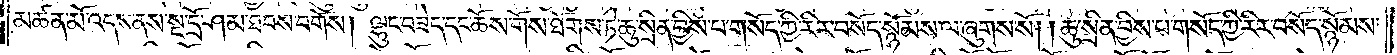མཚན་མོ་འདས་ནས་སྔ་དྲོ་ཤམ་ཐབས་བགོས། ལྷུང་བཟེད་དང་ཆོས་གོས་ཐོགས་ཏེ་ཆུ་སྲིན་བྱིས་པ་གསོད་ཀྱི་རིར་བསོད་སྙོམས་ལ་ཞུགས་སོ། །ཆུ་སྲིན་བྱིས་པ་གསོད་ཀྱི་རིར་བསོད་སྙོམས་
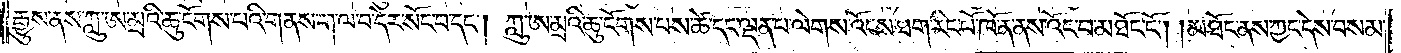རྒྱུས་ནས་ཀླུ་ཨ་མྲའི་ཆུ་ངོགས་པའི་གནས་ག་ལ་བ་དེར་སོང་བ་དང༌། ཀླུ་ཨ་མྲའི་ཆུ་ངོགས་པས་ཚེ་དང་ལྡན་པ་ལེགས་འོངས་ཐག་རིང་པོ་ཁོ་ན་ནས་འོང་བ་མཐོང་ངོ༌། །མཐོང་ནས་ཀྱང་དེས་བསམ་
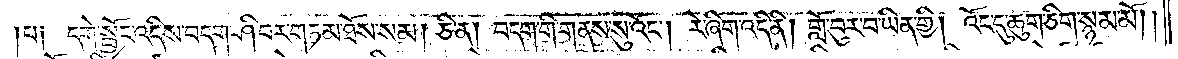པ༑ དགེ་སྦྱོང་འདིས་བདག་ཤི་བར་གཏམ་ཐོས་སམ། ཅི་ན། བདག་གི་གནས་སུ་འོང༌། རེ་ཞིག་འདི་ནི། གློ་བུར་བ་ཡིན་གྱི། འོང་དུ་ཆུག་ཅིག་སྙམ་མོ། །
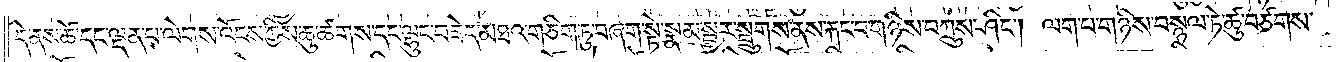དེ་ནས་ཚེ་དང་ལྡན་པ་ལེགས་འོངས་ཀྱིས་ཆུ་ཚགས་དང་ལྷུང་བཟེད་མཐའ་གཅིག་ཏུ་བཞག་སྟེ་སྣམ་སྦྱར་སྦྲུགས་ནས་རྐང་པ་གཉིས་བཀྲུས་ཤིང༌། ལག་པ་གཉིས་བསྙལ་ཏེ་ཚུ་བཙགས་
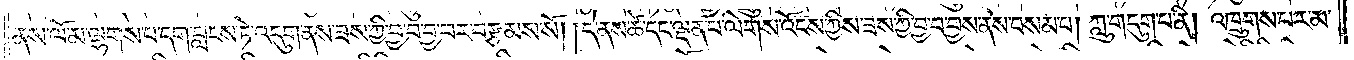ནས་ལོ་མ་ལྷགས་པ་དག་བླངས་ཏེ་འདུག་ནས་ཟས་ཀྱི་བྱ་བ་བྱ་བར་བརྩམས་སོ། །དེ་ནས་ཚེ་དང་ལྡན་པ་ལེགས་འོངས་ཀྱིས་ཟས་ཀྱི་བྱ་བ་བྱས་ནས་བསམ་པ། ཀླུ་གདུག་པ་ནི། འཁྲུགས་པར་མ་
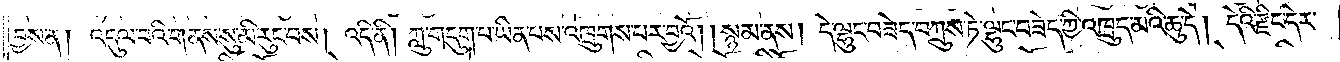བྱས་ན། འདུལ་བའི་གནས་སུ་མི་རུང་བས། འདི་ནི། ཀླུ་གདུག་པ་ཡིན་པས་འཁྲུགས་པར་བྱའོ། །སྙམ་ནས། དེ་ལྷུང་བཟེད་བཀྲུས་ཏེ་ལྷུང་བཟེད་ཀྱི་འཁྲུད་མའི་ཆུ་དེ། དེའི་རྫིང་དེར་
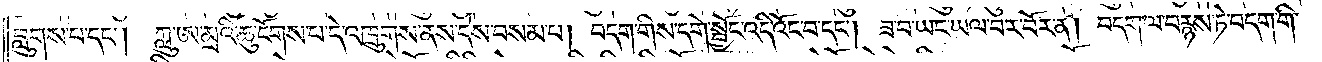བླུགས་པ་དང༌། ཀླུ་ཨ་མྲའི་ཆུ་ངོགས་པ་དེ་འཁྲུགས་ནས་དེས་བསམ་པ། བདག་གིས་དགེ་སྦྱོང་འདི་འོང་བ་དང༌། ཟ་བ་ཡང་ཡལ་བར་བོར་ན། བདག་ལ་བརྙས་ཏེ་བདག་གི་
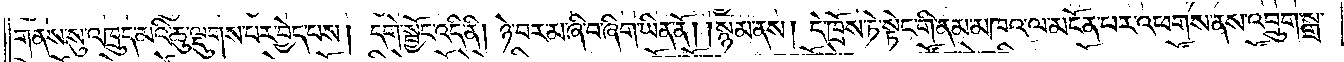གནས་སུ་འཁྲུད་མའི་ཆུ་ལྡུགས་པར་བྱེད་པས། དགེ་སྦྱོང་འདི་ནི། ཉེ་བར་མ་ཞི་བ་ཞིག་ཡིན་ནོ། །སྙམ་ནས། དེ་ཁྲོས་ཏེ་སྟེང་གི་ནམ་མཁའ་ལ་མངོན་པར་འཕགས་ནས་འབྲུག་སྒྲ་
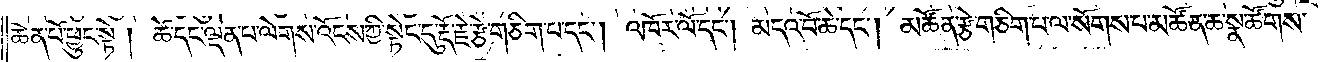ཆེན་པོ་ཕྱུང་སྟེ། ཚེ་དང་ལྡན་པ་ལེགས་འོངས་ཀྱི་སྟེང་དུ་རྡོ་རྗེ་རྩེ་གཅིག་པ་དང༌། འཁོར་ལོ་དང༌། མདའ་བོ་ཆེ་དང༌། མཚོན་རྩེ་གཅིག་པ་ལ་སོགས་པ་མཚོན་ཆ་སྣ་ཚོགས་
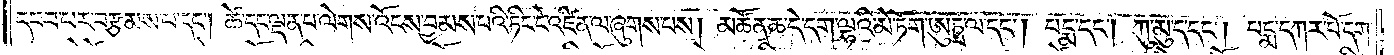དབབ་པར་བརྩམས་པ་དང༌། ཚེ་དང་ལྡན་པ་ལེགས་འོངས་བྱམས་པའི་ཏིང་ངེ་འཛིན་ལ་ཞུགས་པས། མཚོན་ཆ་དེ་དག་ལྷའི་མེ་ཏོག་ཨུཏྤ་ལ་དང༌། པདྨ་དང༌། ཀུ་མུ་ད་དང༌། པདྨ་དཀར་པོ་དག་
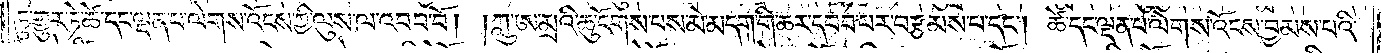ཏུ་གྱུར་ཏེ་ཚེ་དང་ལྡན་པ་ལེགས་འོངས་ཀྱི་ལུས་ལ་འབབ་བོ། །ཀླུ་ཨ་མྲའི་ཆུ་ངོགས་པས་མེ་མདག་གི་ཆར་དབབ་པར་བརྩམས་པ་དང༌། ཚེ་དང་ལྡན་པ་ལེགས་འོངས་བྱམས་པའི་
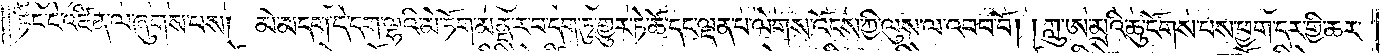ཏིང་ངེ་འཛིན་ལ་ཞུགས་པས། མེ་མདག་དེ་དག་ལྷའི་མེ་ཏོག་མནད་ར་བ་དག་ཏུ་གྱུར་ཏེ་ཚེ་དང་ལྡན་པ་ལེགས་འོངས་ཀྱི་ལུས་ལ་འབབ་བོ། །ཀླུ་ཨ་མྲའི་ཆུ་ངོགས་པས་ཕྱག་དར་གྱི་ཆར་
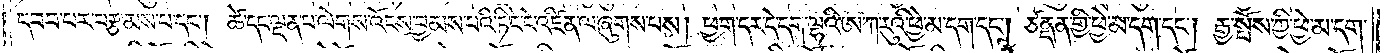དབབ་པར་བརྩམས་པ་དང༌། ཚེ་དང་ལྡན་པ་ལེགས་འོངས་བྱམས་པའི་ཏིང་ངེ་འཛིན་ལ་ཞུགས་པས། ཕྱག་དར་དེ་དག་ལྷའི་ཨ་ཀ་རུའི་ཕྱེ་མ་དག་དང༌། ཙནྡན་གྱི་ཕྱེ་མ་དག་དང༌། རྒྱ་སྤོས་ཀྱི་ཕྱེ་མ་དག་
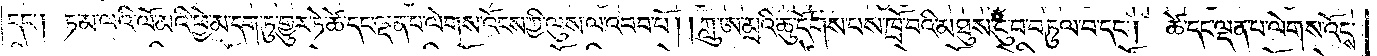དང༌། ཏ་མ་ལའི་ལོ་མའི་ཕྱེ་མ་དག་ཏུ་གྱུར་ཏེ་ཚེ་དང་ལྡན་པ་ལེགས་འོངས་ཀྱི་ལུས་ལ་འབབ་པོ། །ཀླུ་ཨ་མྲའི་ཆུ་ངོགས་པས་ཁྲོ་བའི་མཐུས་ངུ་བ་བཏུལ་བ་དང༌། ཚེ་དང་ལྡན་པ་ལེགས་འོངས་
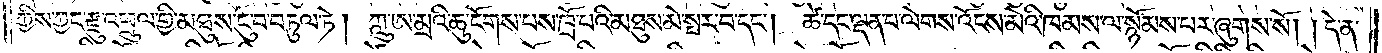ཀྱིས་ཀྱང་རྫུ་འཕྲུལ་གྱི་མཐུས་ངུ་བ་བཏུལ་ཏེ། ཀླུ་ཨ་མྲའི་ཆུ་ངོགས་པས་ཁྲོ་པའི་མཐུས་མེ་སྤར་བ་དང༌། ཚེ་དང་ལྡན་པ་ལེགས་འོངས་མེའི་ཁམས་ལ་སྙོམས་པར་ཞུགས་སོ། །དེ་ན་
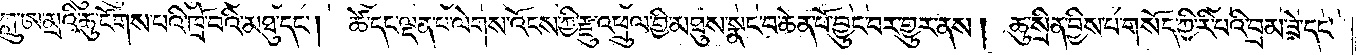ཀླུ་ཨ་མྲའི་ཆུ་ངོགས་པའི་ཁྲོ་བའི་མཐུ་དང༌། ཚེ་དང་ལྡན་པ་ལེགས་འོངས་ཀྱི་རྫུ་འཕྲུལ་གྱི་མཐུས་སྣང་བ་ཆེན་པོ་བྱུང་བར་གྱུར་ནས། ཆུ་སྲིན་བྱིས་པ་གསོད་ཀྱི་རི་པའི་བྲམ་ཟེ་དང་
